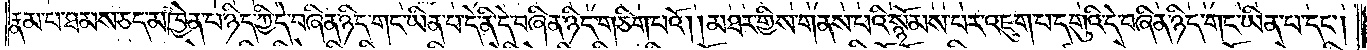རྣམ་པ་ཐམས་ཅད་མཁྱེན་པ་ཉིད་ཀྱི་དེ་བཞིན་ཉིད་གང་ཡིན་པ་དེ་ནི་དེ་བཞིན་ཉིད་གཅིག་པའོ། །མཐར་གྱིས་གནས་པའི་སྙོམས་པར་འཇུག་པ་དགུའི་དེ་བཞིན་ཉིད་གང་ཡིན་པ་དང༌།
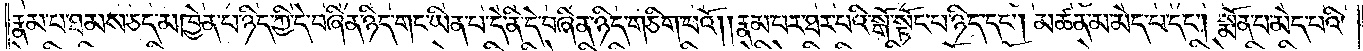རྣམ་པ་ཐམས་ཅད་མཁྱེན་པ་ཉིད་ཀྱི་དེ་བཞིན་ཉིད་གང་ཡིན་པ་དེ་ནི་དེ་བཞིན་ཉིད་གཅིག་པའོ། །རྣམ་པར་ཐར་པའི་སྒོ་སྟོང་པ་ཉིད་དང༌། མཚན་མ་མེད་པ་དང༌། སྨོན་པ་མེད་པའི་
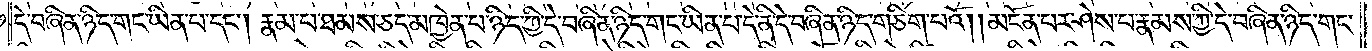དེ་བཞིན་ཉིད་གང་ཡིན་པ་དང༌། རྣམ་པ་ཐམས་ཅད་མཁྱེན་པ་ཉིད་ཀྱི་དེ་བཞིན་ཉིད་གང་ཡིན་པ་དེ་ནི་དེ་བཞིན་ཉིད་གཅིག་པའོ། །མངོན་པར་ཤེས་པ་རྣམས་ཀྱི་དེ་བཞིན་ཉིད་གང་
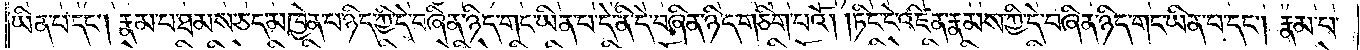ཡིན་པ་དང༌། རྣམ་པ་ཐམས་ཅད་མཁྱེན་པ་ཉིད་ཀྱི་དེ་བཞིན་ཉིད་གང་ཡིན་པ་དེ་ནི་དེ་བཞིན་ཉིད་གཅིག་པའོ། །ཏིང་ངེ་འཛིན་རྣམས་ཀྱི་དེ་བཞིན་ཉིད་གང་ཡིན་པ་དང༌། རྣམ་པ་
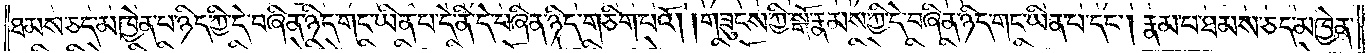ཐམས་ཅད་མཁྱེན་པ་ཉིད་ཀྱི་དེ་བཞིན་ཉིད་གང་ཡིན་པ་དེ་ནི་དེ་བཞིན་ཉིད་གཅིག་པའོ། །གཟུངས་ཀྱི་སྒོ་རྣམས་ཀྱི་དེ་བཞིན་ཉིད་གང་ཡིན་པ་དང༌། རྣམ་པ་ཐམས་ཅད་མཁྱེན་
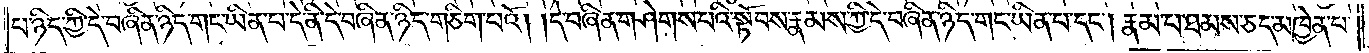པ་ཉིད་ཀྱི་དེ་བཞིན་ཉིད་གང་ཡིན་པ་དེ་ནི་དེ་བཞིན་ཉིད་གཅིག་པའོ། །དེ་བཞིན་གཤེགས་པའི་སྟོབས་རྣམས་ཀྱི་དེ་བཞིན་ཉིད་གང་ཡིན་པ་དང༌། རྣམ་པ་ཐམས་ཅད་མཁྱེན་པ་
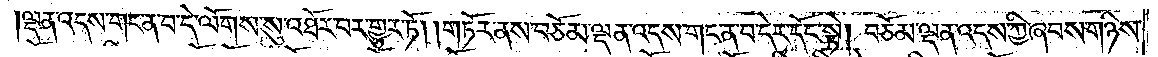ལྡན་འདས་གང་ན་བ་དེ་ལོགས་སུ་འཐོར་བར་གྱུར་ཏོ། །གཏོར་ནས་བཅོམ་ལྡན་འདས་གང་ན་བ་དེར་དོང་སྟེ། བཅོམ་ལྡན་འདས་ཀྱི་ཞབས་གཉིས་
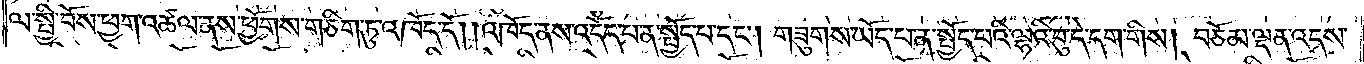ལ་སྤྱི་བོས་ཕྱག་འཚལ་ནས་ཕྱོགས་གཅིག་ཏུ་འཁོད་དོ། །འཁོད་ནས་འདོད་པ་ན་སྤྱོད་པ་དང༌། གཟུགས་ཡོད་པ་ན་སྤྱོད་པའི་ལྷའི་བུ་དེ་དག་གིས། བཅོམ་ལྡན་འདས་
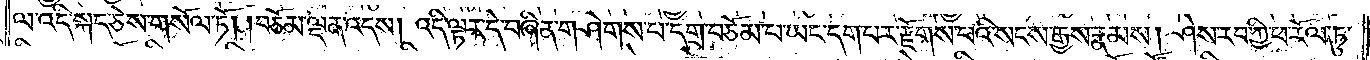ལ་འདི་སྐད་ཅེས་གསོལ་ཏོ། །བཅོམ་ལྡན་འདས། འདི་ལྟར་དེ་བཞིན་གཤེགས་པ་དགྲ་བཅོམ་པ་ཡང་དག་པར་རྫོགས་པའི་སངས་རྒྱས་རྣམས། ཤེས་རབ་ཀྱི་ཕ་རོལ་ཏུ་
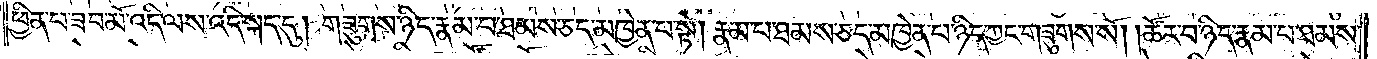ཕྱིན་པ་ཟབ་མོ་འདི་ལས་འདི་སྐད་དུ། གཟུགས་ཉིད་རྣམ་པ་ཐམས་ཅད་མཁྱེན་པ་སྟེ། རྣམ་པ་ཐམས་ཅད་མཁྱེན་པ་ཉིད་ཀྱང་གཟུགས་སོ། །ཚོར་བ་ཉིད་རྣམ་པ་ཐམས་
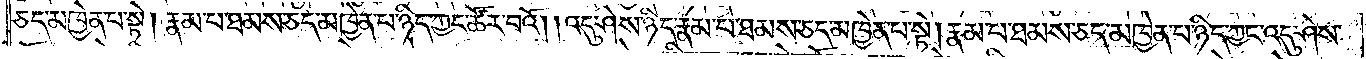ཅད་མཁྱེན་པ་སྟེ། རྣམ་པ་ཐམས་ཅད་མཁྱེན་པ་ཉིད་ཀྱང་ཚོར་བའོ། །འདུ་ཤེས་ཉིད་རྣམ་པ་ཐམས་ཅད་མཁྱེན་པ་སྟེ། རྣམ་པ་ཐམས་ཅད་མཁྱེན་པ་ཉིད་ཀྱང་འདུ་ཤེས་
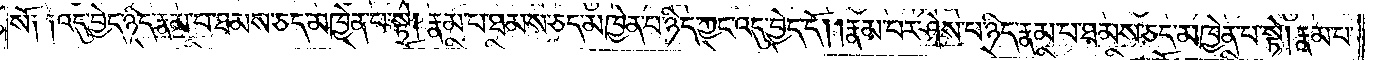སོ། །འདུ་བྱེད་ཉིད་རྣམ་པ་ཐམས་ཅད་མཁྱེན་པ་སྟེ། རྣམ་པ་ཐམས་ཅད་མཁྱེན་པ་ཉིད་ཀྱང་འདུ་བྱེད་དོ། །རྣམ་པར་ཤེས་པ་ཉིད་རྣམ་པ་ཐམས་ཅད་མཁྱེན་པ་སྟེ། རྣམ་པ་
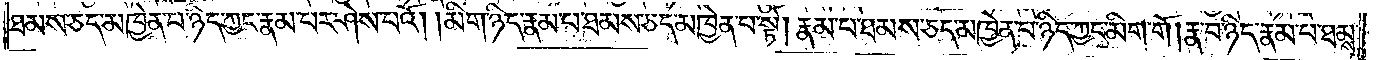ཐམས་ཅད་མཁྱེན་པ་ཉིད་ཀྱང་རྣམ་པར་ཤེས་པའོ། །མིག་ཉིད་རྣམ་པ་ཐམས་ཅད་མཁྱེན་པ་སྟེ། རྣམ་པ་ཐམས་ཅད་མཁྱེན་པ་ཉིད་ཀྱང་མིག་གོ །རྣ་བ་ཉིད་རྣམ་པ་ཐམས་
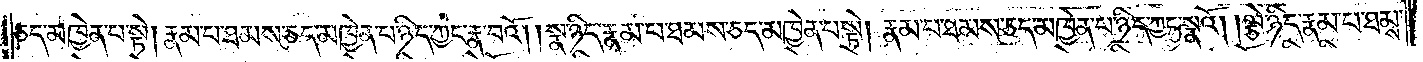ཅད་མཁྱེན་པ་སྟེ། རྣམ་པ་ཐམས་ཅད་མཁྱེན་པ་ཉིད་ཀྱང་རྣ་བའོ། །སྣ་ཉིད་རྣམ་པ་ཐམས་ཅད་མཁྱེན་པ་སྟེ། རྣམ་པ་ཐམས་ཅད་མཁྱེན་པ་ཉིད་ཀྱང་སྣའོ། །ལྕེ་ཉིད་རྣམ་པ་ཐམས་
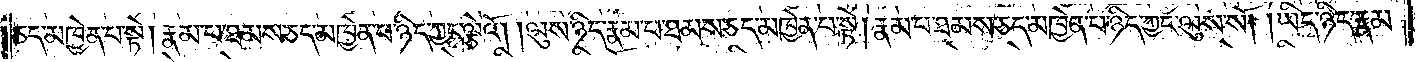ཅད་མཁྱེན་པ་སྟེ། རྣམ་པ་ཐམས་ཅད་མཁྱེན་པ་ཉིད་ཀྱང་ལྕེའོ། །ལུས་ཉིད་རྣམ་པ་ཐམས་ཅད་མཁྱེན་པ་སྟེ། རྣམ་པ་ཐམས་ཅད་མཁྱེན་པ་ཉིད་ཀྱང་ལུས་སོ། །ཡིད་ཉིད་རྣམ་
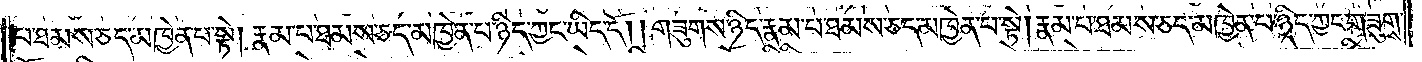པ་ཐམས་ཅད་མཁྱེན་པ་སྟེ། རྣམ་པ་ཐམས་ཅད་མཁྱེན་པ་ཉིད་ཀྱང་ཡིད་དོ། །གཟུགས་ཉིད་རྣམ་པ་ཐམས་ཅད་མཁྱེན་པ་སྟེ། རྣམ་པ་ཐམས་ཅད་མཁྱེན་པ་ཉིད་ཀྱང་གཟུགས་
